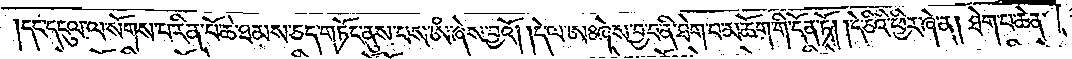དང་དངུལ་ལ་སོགས་པ་རིན་པོ་ཆེ་ཐམས་ཅད་གཏོང་ནུས་པས་ཨཾ་ཞེས་བྱའོ། །དེ་ལ་ཨཿ  བྱ་བ་ནི་ཐེག་པ་མཆོག་གི་དོན་ཏོ། །དེ་ཅིའི་ཕྱིར་ཞེ་ན། ཐེག་པ་ཆེན་
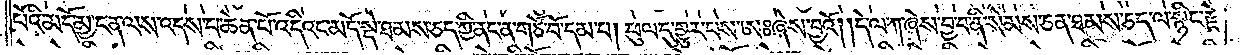པོའི་མདོ་མྱ་ངན་ལས་འདས་པ་ཆེན་པོ་འདིའང་མདོ་སྡེ་ཐམས་ཅད་ཀྱི་ནང་ན་གཙོ་བོ་དམ་པ། ཕུལ་དུ་གྱུར་པས་ཨཿ  ཞེས་བྱའོ། །དེ་ལ་ཀ་ཞེས་བྱ་བ་ནི་སེམས་ཅན་ཐམས་ཅད་ལ་སྙིང་རྗེ་
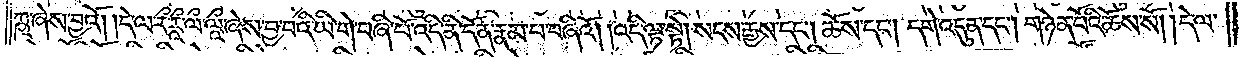ཀྵ་ཞེས་བྱའོ། །དེ་ལ་རྀ་རཱྀ་ལྀ་ལཱྀ་ཞེས་བྱ་བའི་ཡི་གེ་བཞི་པོ་འདི་ནི་དོན་རྣམ་པ་བཞིའོ། །འདི་ལྟ་སྟེ། སངས་རྒྱས་དང༌། ཆོས་དང༌། དགེ་འདུན་དང༌། གཉེན་པོའི་ཆོས་སོ། །དེ་ལ་
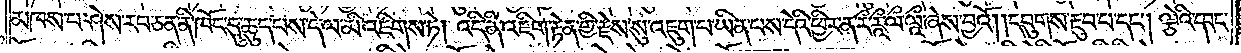མཁས་པ་ཤེས་རབ་ཅན་ནི་ཁོང་དུ་ཆུད་པས་དེ་ལ་མི་འཇིགས་ཏེ། འདི་ནི་འཇིག་རྟེན་གྱི་རྗེས་སུ་འཇུག་པ་ཡིན་པས་དེའི་ཕྱིར་ན་རྀ་རཱྀ་ལྀ་ལཱྀ་ཞེས་བྱའོ། །དབུགས་རྔུབ་པ་དང༌། ལྕེའི་དབང་
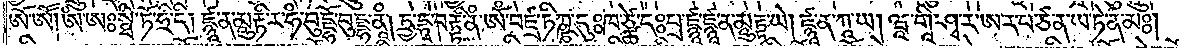ཨོ་ཨཽ། ཨཾ་ཨཿ སྠི་ཏོ་ཧྲི་དི། ཛྙཱ་ན་མཱུརྟི་ར་ཧཾ་བུདྡྷོ་བུདྡྷ་ནཱཾ། ཏྲྱ་དྷྭ་བ་རྟྟི་ནཾ་ཨོཾ་བཛྲ་ཏིཀྵྞ་དུཿཁ་ཙྪེ་དེཿཔྲ་ཛྙཱ་ཛྙཱ་ན་མཱུརྟྟ་ཡེ། ཛྙཱ་ན་ཀཱ་ཡ། ཝཱ་གཱི་ཤྭ་ར་ཨ་ར་པ་ཙ་ན་ཡ་ཏེ་ན་མཿ། །
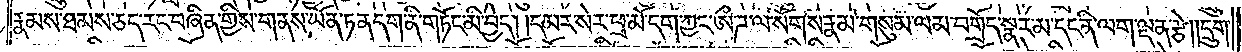རྣམས་ཐམས་ཅད་རང་བཞིན་གྱིས་གནས་ཡོན་ཏན་དག་ནི་གཏོང་མི་བྱེད། །དམར་སེར་ཕྲ་མོ་དག་ཀྱང་ཨྀ་ཌ་ལ་སོགས་རྣམ་གསུམ་ལམ་བགྲོད་སྣར་མ་དང་ནི་ལག་ལྡན་རྩེ། །དྲུག།
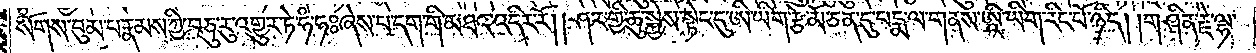སོགས་བུམ་པ་རྣམས་ཀྱི་བཅུ་རུ་འགྱུར་ཏེ་ཧཾ་ཧཿཞེས་པ་དག་གི་མཐའ་འདིར་རོ། །ཤར་གྱི་ཆུ་སྐྱེས་སྟེང་དུ་ཨི་ཡིག་རྩེ་མོ་ཅན་དུ་པདྨ་ལ་གནས་ཨཱི་ཡིག་རིང་པོ་ཉིད། །གཤིན་རྗེ་ལྷ་
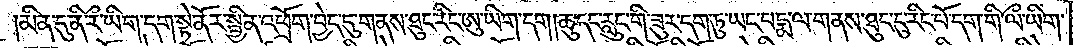མིན་དུ་ནི་རྀ་ཡིག་དག་སྟེ་ནོར་སྦྱིན་འཕྲོག་བྱེད་དུ་གནས་ཐུང་རིང་ཨུ་ཡིག་དག །ཆུ་དང་རླུང་གི་ཟུར་དག་ཏུ་ཡང་པདྨ་ལ་གནས་ཐུང་དུ་རིང་པོ་དག་གི་ལྀ་ཡིག་
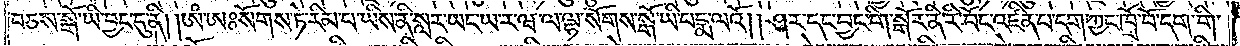བཅས་སྒོ་ཡི་བྱང་དུ་ནི། །ཨཾ་ཨཿསོགས་ཏེ་རིམ་པ་ཡིས་ནི་སླར་ཡང་ཡ་ར་ཝ་ལ་ལྷ་སོགས་སྒོ་ཡི་པདྨ་ལའོ། །ཤར་དང་བྱང་གི་སྒོར་ནི་རི་བོང་འཛིན་པ་དག་ཀྱང་ཁྲོ་བོ་དག་གི་
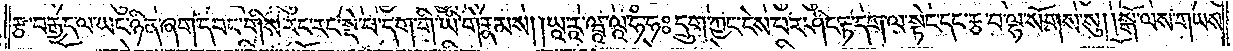རྩ་བརྒྱད་ལ་ཡང་ཉིན་ཞག་དབང་གིས་རང་རང་སྡེ་པ་དག་གི་ཡི་གེ་རྣམས། །ཡཱ་རཱ་ཝཱ་ལཱ་ཧཾ་ཧཿ དྲུག་ཀྱང་ངེས་པར་ཤིང་རྟ་དག་ལ་སྟེང་དང་རྩ་བ་ལྷ་སོགས་སུ། །སྒོ་ལས་གཡས་
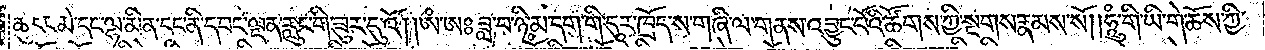ཆུ་དང་མེ་དང་ལྷ་མིན་དང་ནི་དབང་ལྡན་རླུང་གི་ཟུར་དུ་འོ། །ཨཾ་ཨཿ ཟླ་བ་ཉི་མ་དག་གི་དུར་ཁྲོད་ས་གཞི་ལ་གནས་འབྱུང་པོའི་ཚོགས་ཀྱི་སྔགས་རྣམས་སོ། །ཧཱུཾ་གི་ཡི་གེ་ཆོས་ཀྱི་
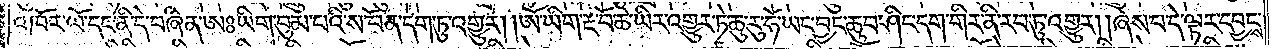འཁོར་ལོ་དང་ནི་དེ་བཞིན་ཨཿ ཡིག་བུམ་པའི་ས་བོན་དག་ཏུ་འགྱུར། །ཨོཾ་ཡིག་རྔ་བོ་ཆེ་ཡིར་འགྱུར་ཏེ་ཆུ་རུ་ཧོ་ཡང་བྱང་ཆུབ་ཤིང་དག་གིར་ནི་རབ་ཏུ་འགྱུར། །ཞེས་པ་དེ་ལྟར་དབྱངས་
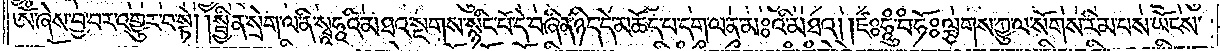ཨོཾ་ཞེས་བྱ་བར་འགྱུར་བ་སྟེ། །སྦྱིན་སྲེག་ལ་ནི་སྭཱཧཱའི་མཐའ་སྔགས་སྙིང་པོ་དེ་བཞིན་ཉིད་དེ་མཆོད་པ་དག་ལ་ན་མཿ འི་མཐའ། །ཛཿ ཧཱུཾ་བཾ་ཧོཿ ལྕགས་ཀྱུ་ལ་སོགས་རིམ་པས་ཡོངས་
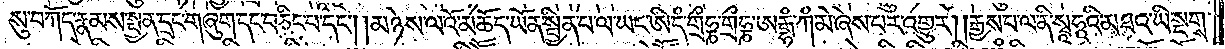སུ་བཀོད་རྣམས་སྤྱན་དྲང་གཞུག་དང་བཅིང་བ་དང༌། །མཉེས་ལ་འོ་མཆོད་ཡོན་སྦྱིན་པ་ལ་ཡང་ཨི་དཾ་གྲྀཧྞ་གྲྀཧྞ་ཨརྒྷཾ་ཀཾ་མེ་ཞེས་པར་འགྱུར། །རྒྱས་པ་ལ་ནི་སྭཱཧཱའི་མཐའ་ཡི་སྔགས་
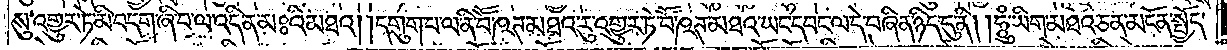སུ་འགྱུར་ཏེ་མི་བདག་ཞི་བ་ལ་འདི་ན་མཿ འི་མཐའ། །དགུག་པ་ལ་ནི་བཽ་ཥཊ་མཐའ་རུ་འགྱུར་ཏེ་བཽ་ཥཊ་མཐའ་ཡང་དབང་ལ་དེ་བཞིན་ཉིད་དུ་ནི། །ཧཱུཾ་ཡིག་མཐའ་ཅན་མངོན་སྤྱོད་
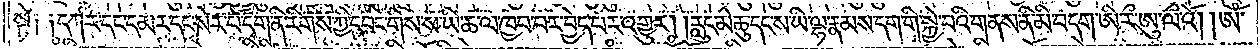སྟེ༑ ༑དཀར་དང་དམར་དང་སེར་པོ་དག་ནི་རིགས་ཀྱི་དབང་གིས་ས་ཡི་ཆ་ལ་ཁྱབ་པར་བྱེད་པར་འགྱུར། །རླུང་མེ་ཆུ་དང་ས་ཡི་ལྷ་རྣམས་དག་གི་སྐྱེ་བའི་གནས་ནི་མི་བདག་ཨི་རྀ་ཨུ་ལྀ་འོ། །ཨོཾ་
